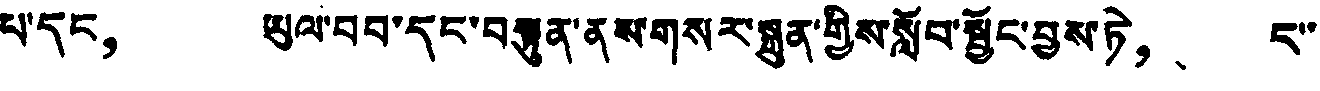པ་དང， ཡུལ་བབ་དང་བསྟུན་ནས་གསར་སྐྲུན་གྱིས་སློབ་སྦྱོང་བྱས་ཏེ， ང་
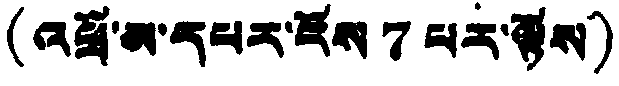(འཕྲོ་མ་དཔར་ངོས་ 7 པར་ལྟོས)
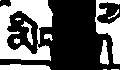མིང ག
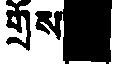གྲོས
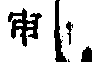审
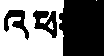འཕ
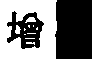增
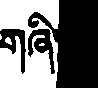གཞི
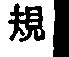規
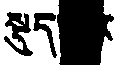སྡུད  ར
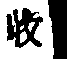收
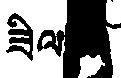ཟིལ
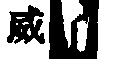威
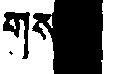གས
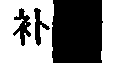补
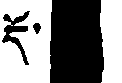དོ་
